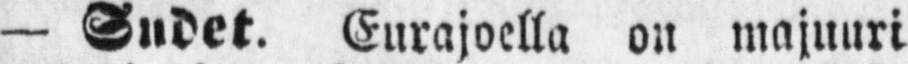— Sudet. Eurajoella on majuuri
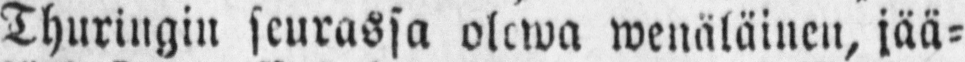Thuringin seurassa olewa wenäläinen, jää-
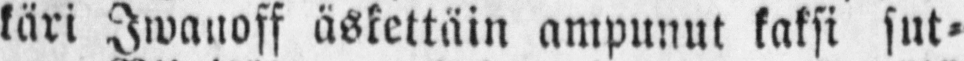käri Iwanoff äskettäin ampunut kaksi sut-
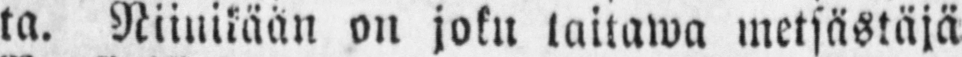ta. Niinikään on joku taitawa metsästäjä
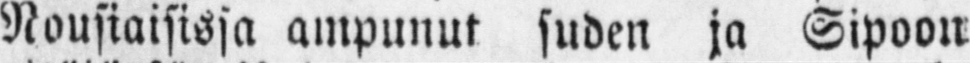Nousiaisissa ampunut suden ja Sipoon
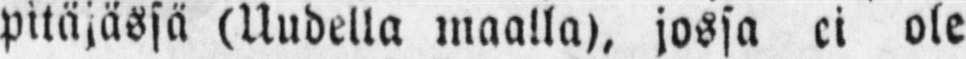pitäjässä (Uudella maalla), jossa ei ole
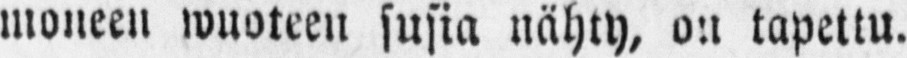moneen wuoteen susia nähty, on tapettu.
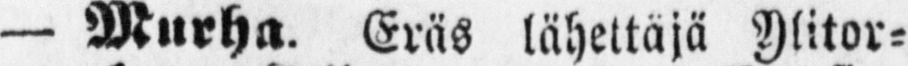— Murha. Eräs lähettäjä Ylitor-
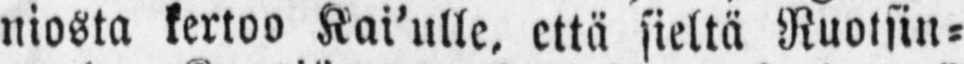niosta kertoo Kai'ulle, että sieltä Ruotsin-
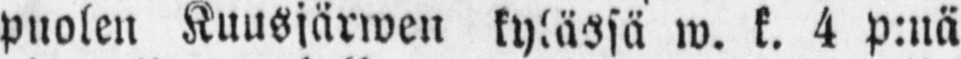puolen Kuusjärwen kylässä w. k. 4 p:nä
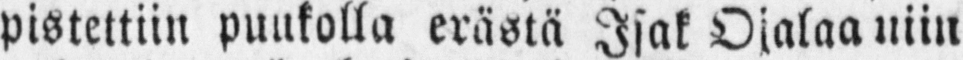pistettiin puukolla erästä Isak Ojalaa niin
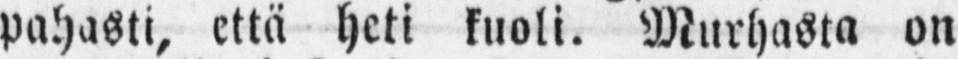pahasti, että heti kuoli. Murhasta on
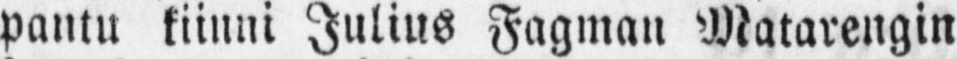pantu kiinni Julius Fagman Matarengin
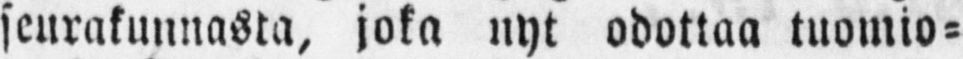seurakunnasta, joka nyt odottaa tuomio-
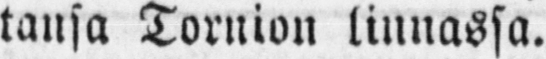tansa Tornion linnassa.
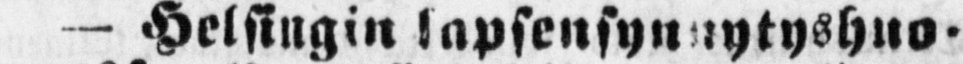— Helsingin lapsensynnytyshuo-
